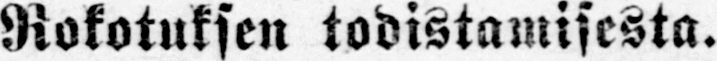Rokotuksen todistamisesta.
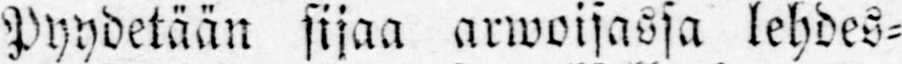Pyydetään sijaa arwoisassa lehdes-
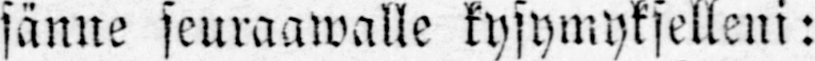sänne seuraawalle kysymykselleni:
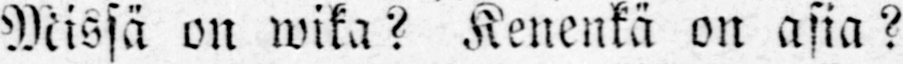Missä on wika? Kenenkä on asia?
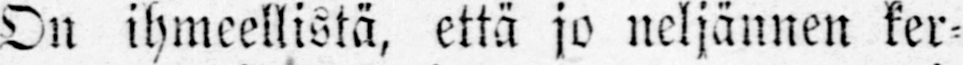On ihmeellistä, että jo neljännen ker-
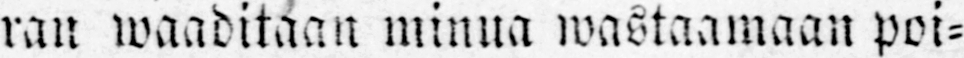ran waaditaan minua wastaamaan poi-
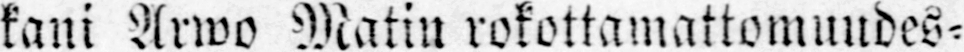kani Arwo Matin rokottamattomuudes-
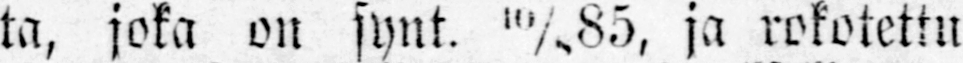ta, joka on synt. 10/85, ja rokotettu
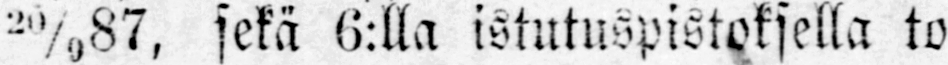20/9 87, sekä 6:lla istutuspistoksella to-
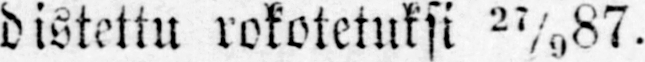distettu rokotetuksi 27/9 87.
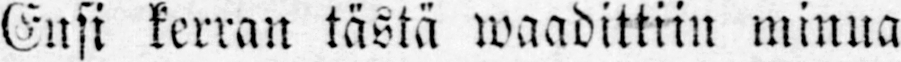Ensi kerran tästä waadittiin minua
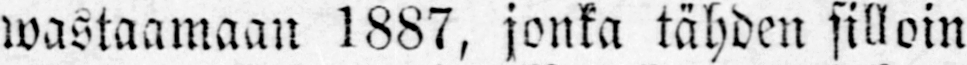wastaamaan 1887, jonka tähden silloin
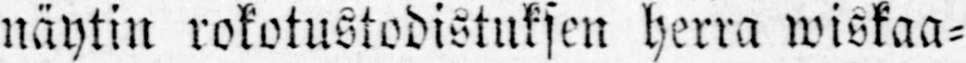näytin rokotustodistuksen herra wiskaa-
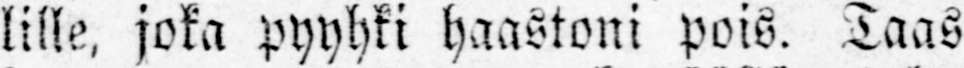lille, joka pyyhki haastoni pois. Taas
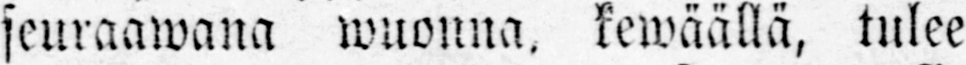seuraawana wuonna, kewäällä, tulee
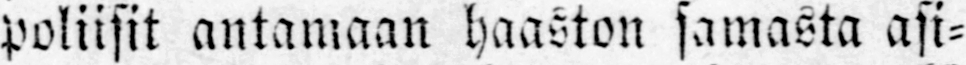poliisit antamaan haaston samasta asi-
